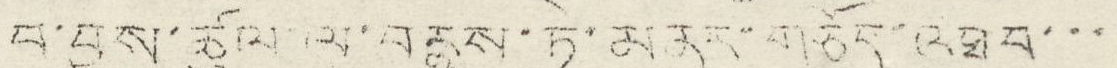བ་བྱས་ཚུལ་ལ་བརྙས་ཏེ་མནར་གཅོད་འཐབ་་་
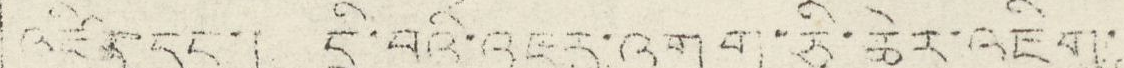འཛིན་དང་། དྲི་བའི་འཇུར་འགག་ཅི་ཆེར་འཇིགས་
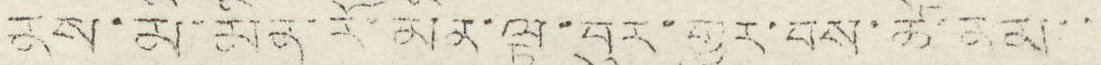ནས་མི་མིན་རོ་མིན་ལྟ་བུར་གྱུར་བས་ཚེ་ནམ་་
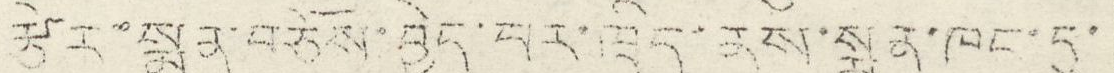རྩེར་སྨན་བཅོས་བྱེད་པར་ཁྲིད་ནས་སྨན་ཁང་དུ་
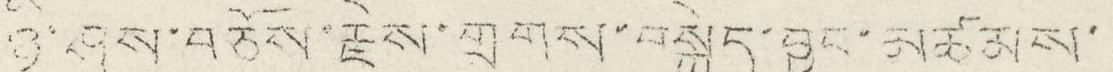ཉི་ཤས་བཅོས་རྗེས་གྲགས་བསྐྱེད་བྱུང་མཚམས་
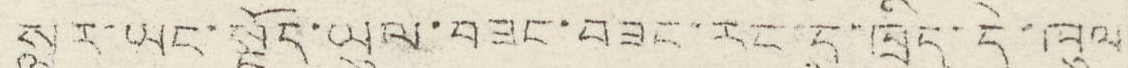སླར་ཡང་སྔོད་ཡུལ་བཟང་བཟང་རང་དུ་ཁྲིད་དེ་ཁུལ
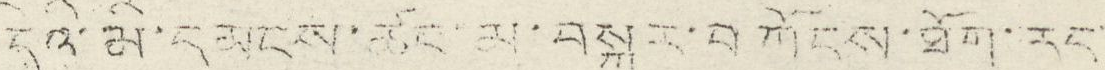དེའི་མི་དམངས་ཚང་མ་བསྐྱར་བཀོངས་ཐོག་རང་
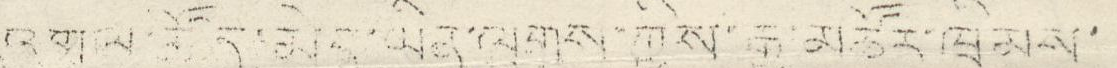འགལ་ཚོད་མེད་ཡིན་ལུགས་གྱིས་རྒྱ་མཚོར་ཁྲིམས་
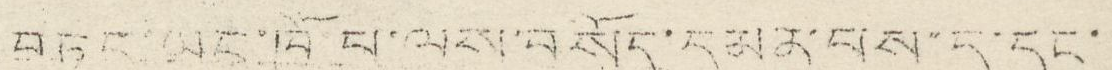བཏང་ཡང་ཁོ་པ་ལས་བསོད་དམན་པས་ད་དུང་
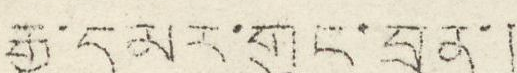རྒྱ་དམར་གུང་བྲན་།
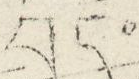བོད་
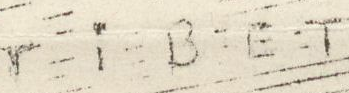T I B E T
